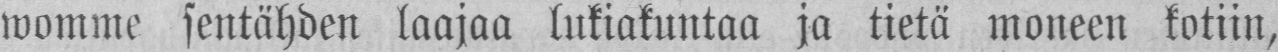womme sentähden laajaa lukiakuntaa ja tietä moneen kotiin,
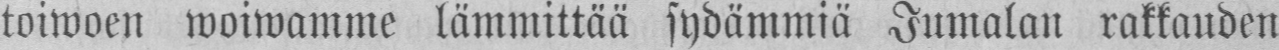toiwoen woiwamme lämmittää sydämmiä Jumalan rakkauden
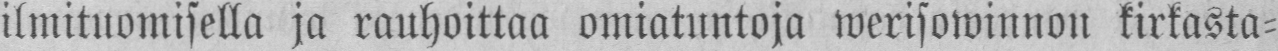ilmituomisella ja rauhoittaa omiatuntoja werisowinnon kirkasta-
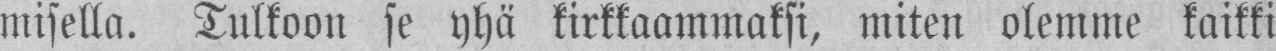misella. Tulkoon se yhä kirkkaammaksi, miten olemme kaikki
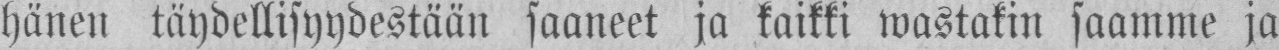hänen täydellisyydestään saaneet ja kaikki wastakin saamme ja
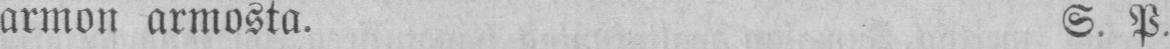armon armosta. S. P.
